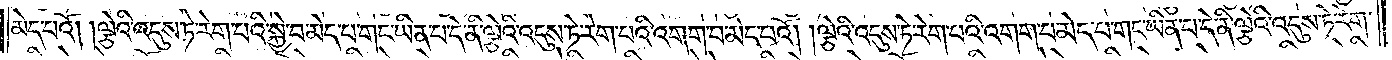མེད་པའོ། །ལྕེའི་འདུས་ཏེ་རེག་པའི་སྐྱེ་བ་མེད་པ་གང་ཡིན་པ་དེ་ནི་ལྕེའི་འདུས་ཏེ་རེག་པའི་འགག་པ་མེད་པའོ། །ལྕེའི་འདུས་ཏེ་རེག་པའི་འགག་པ་མེད་པ་གང་ཡིན་པ་དེ་ནི་ལྕེའི་འདུས་ཏེ་རེག་
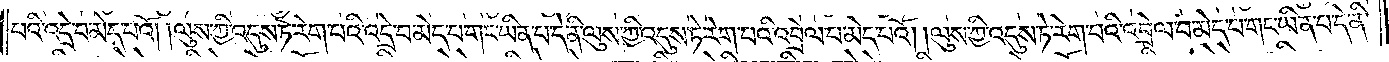པའི་འདྲེ་བ་མེད་པའོ། །ལུས་ཀྱི་འདུས་ཏེ་རེག་པའི་འདྲེ་བ་མེད་བ་གང་ཡིན་པ་དེ་ནི་ལུས་ཀྱི་འདུས་ཏེ་རེག་པའི་འབྲེལ་བ་མེད་པའོ། །ལུས་ཀྱི་འདུས་ཏེ་རེག་པའི་འབྲེལ་བ་མེད་པ་གང་ཡིན་པ་དེ་ནི་
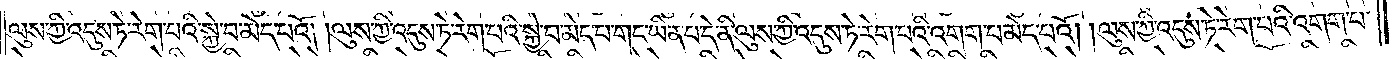ལུས་ཀྱི་འདུས་ཏེ་རེག་པའི་སྐྱེ་བ་མེད་པའོ། །ལུས་ཀྱི་འདུས་ཏེ་རེག་པའི་སྐྱེ་བ་མེད་པ་གང་ཡིན་པ་དེ་ནི་ལུས་ཀྱི་འདུས་ཏེ་རེག་པའི་འགག་པ་མེད་པའོ། །ལུས་ཀྱི་འདུས་ཏེ་རེག་པའི་འགག་པ་
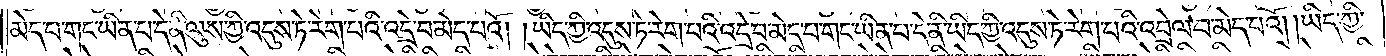མེད་པ་གང་ཡིན་པ་དེ་ནི་ལུས་ཀྱི་འདུས་ཏེ་རེག་པའི་འདྲེ་བ་མེད་པའོ། །ཡིད་ཀྱི་འདུས་ཏེ་རེག་པའི་འདྲེ་བ་མེད་པ་གང་ཡིན་པ་དེ་ནི་ཡིད་ཀྱི་འདུས་ཏེ་རེག་པའི་འབྲེལ་བ་མེད་པའོ། །ཡིད་ཀྱི་
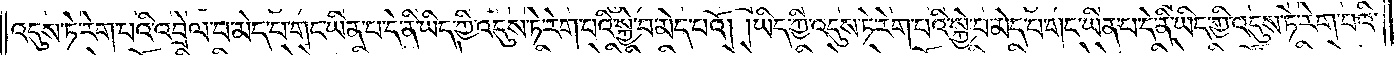འདུས་ཏེ་རེག་པའི་འབྲེལ་བ་མེད་པ་གང་ཡིན་པ་དེ་ནི་ཡིད་ཀྱི་འདུས་ཏེ་རེག་པའི་སྐྱེ་བ་མེད་པའོ། །ཡིད་ཀྱི་འདུས་ཏེ་རེག་པའི་སྐྱེ་བ་མེད་པ་གང་ཡིན་པ་དེ་ནི་ཡིད་ཀྱི་འདུས་ཏེ་རེག་པའི་
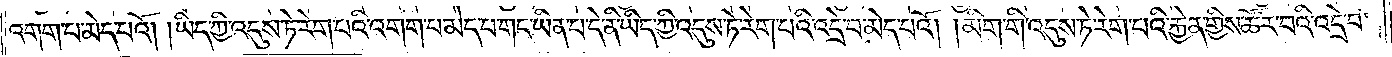འགག་པ་མེད་པའོ། །ཡིད་ཀྱི་འདུས་ཏེ་རེག་པའི་འགག་པ་མེད་པ་གང་ཡིན་པ་དེ་ནི་ཡིད་ཀྱི་འདུས་ཏེ་རེག་པའི་འདྲེ་བ་མེད་པའོ། །མིག་གི་འདུས་ཏེ་རེག་པའི་རྐྱེན་གྱིས་ཚོར་བའི་འདྲེ་བ་
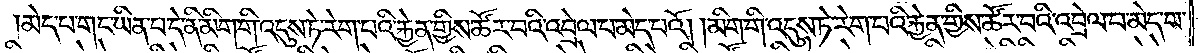མེད་པ་གང་ཡིན་པ་དེ་ནི་མིག་གི་འདུས་ཏེ་རེག་པའི་རྐྱེན་གྱིས་ཚོར་བའི་འབྲེལ་པ་མེད་པའོ། །མིག་གི་འདུས་ཏེ་རེག་པའི་རྐྱེན་གྱིས་ཚོར་བའི་འབྲེལ་བ་མེད་པ་
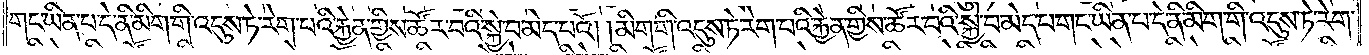གང་ཡིན་པ་དེ་ནི་མིག་གི་འདུས་ཏེ་རེག་པའི་རྐྱེན་གྱིས་ཚོར་བའི་སྐྱེ་བ་མེད་པའོ། །མིག་གི་འདུས་ཏེ་རེག་པའི་རྐྱེན་གྱིས་ཚོར་བའི་སྐྱེ་བ་མེད་པ་གང་ཡིན་པ་དེ་ནི་མིག་གི་འདུས་ཏེ་རེག་
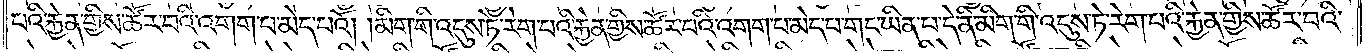པའི་རྐྱེན་གྱིས་ཚོར་བའི་འགག་པ་མེད་པའོ། །མིག་གི་འདུས་ཏེ་རེག་པའི་རྐྱེན་གྱིས་ཚོར་བའི་འགག་པ་མེད་པ་གང་ཡིན་པ་དེ་ནི་མིག་གི་འདུས་ཏེ་རེག་པའི་རྐྱེན་གྱིས་ཚོར་བའི་
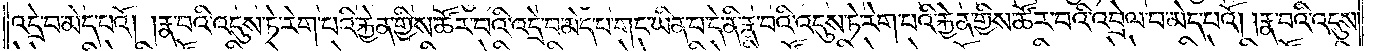འདྲེ་བ་མེད་པའོ། །རྣ་བའི་འདུས་ཏེ་རེག་པའི་རྐྱེན་གྱིས་ཚོར་བའི་འདྲེ་བ་མེད་པ་གང་ཡིན་པ་དེ་ནི་རྣ་བའི་འདུས་ཏེ་རེག་པའི་རྐྱེན་གྱིས་ཚོར་བའི་འབྲེལ་བ་མེད་པའོ། །རྣ་བའི་འདུས་
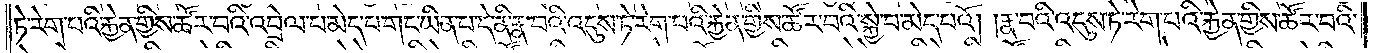ཏེ་རེག་པའི་རྐྱེན་གྱིས་ཚོར་བའི་འབྲེལ་བ་མེད་པ་གང་ཡིན་པ་དེ་ནི་རྣ་བའི་འདུས་ཏེ་རེག་པའི་རྐྱེན་གྱིས་ཚོར་བའི་སྐྱེ་བ་མེད་པའོ། །རྣ་བའི་འདུས་ཏེ་རེག་པའི་རྐྱེན་གྱིས་ཚོར་བའི་
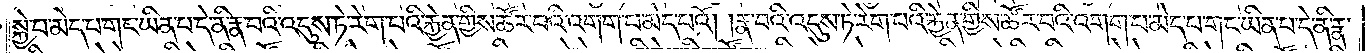སྐྱེ་བ་མེད་པ་གང་ཡིན་པ་དེ་ནི་རྣ་བའི་འདུས་ཏེ་རེག་པའི་རྐྱེན་གྱིས་ཚོར་བའི་འགག་པ་མེད་པའོ། །རྣ་བའི་འདུས་ཏེ་རེག་པའི་རྐྱེན་གྱིས་ཚོར་བའི་འགག་པ་མེད་པ་གང་ཡིན་པ་དེ་ནི་རྣ་
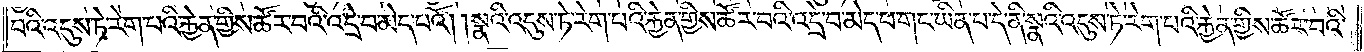བའི་འདུས་ཏེ་རེག་པའི་རྐྱེན་གྱིས་ཚོར་བའི་འདྲེ་བ་མེད་པའོ། །སྣའི་འདུས་ཏེ་རེག་པའི་རྐྱེན་གྱིས་ཚོར་བའི་འདྲེ་བ་མེད་པ་གང་ཡིན་པ་དེ་ནི་སྣའི་འདུས་ཏེ་རེག་པའི་རྐྱེན་གྱིས་ཚོར་བའི་
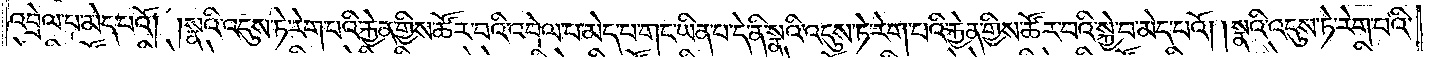འབྲེལ་པ་མེད་པའོ། །སྣའི་འདུས་ཏེ་རེག་པའི་རྐྱེན་གྱིས་ཚོར་བའི་འབྲེལ་པ་མེད་པ་གང་ཡིན་པ་དེ་ནི་སྣའི་འདུས་ཏེ་རེག་པའི་རྐྱེན་གྱིས་ཚོར་བའི་སྐྱེ་བ་མེད་པའོ། །སྣའི་འདུས་ཏེ་རེག་པའི་
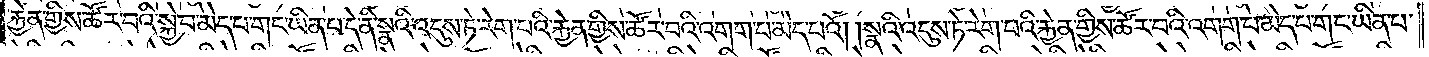རྐྱེན་གྱིས་ཚོར་བའི་སྐྱེ་བ་མེད་པ་གང་ཡིན་པ་དེ་ནི་སྣའི་འདུས་ཏེ་རེག་པའི་རྐྱེན་གྱིས་ཚོར་བའི་འགག་པ་མེད་པའོ། །སྣའི་འདུས་ཏེ་རེག་པའི་རྐྱེན་གྱིས་ཚོར་བའི་འགག་པ་མེད་པ་གང་ཡིན་པ་
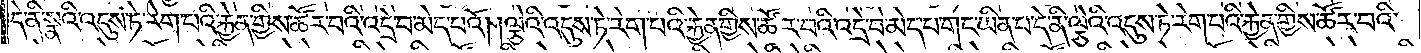དེ་ནི་སྣའི་འདུས་ཏེ་རེག་པའི་རྐྱེན་གྱིས་ཚོར་བའི་འདྲེ་བ་མེད་པའོ། །ལྕེའི་འདུས་ཏེ་རེག་པའི་རྐྱེན་གྱིས་ཚོར་བའི་འདྲེ་བ་མེད་པ་གང་ཡིན་པ་དེ་ནི་ལྕེའི་འདུས་ཏེ་རེག་པའི་རྐྱེན་གྱིས་ཚོར་བའི་
